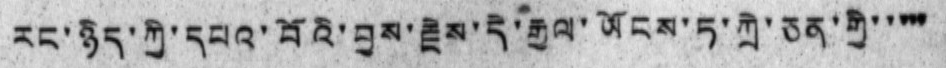རང་ཉིད་ཀྱི་དཔའ་བོའི་བྱས་རྗེས་དེ་རྒྱལ་ཡོངས་ཏ་ཀྲེ་ཅན་གྱི་་་་་
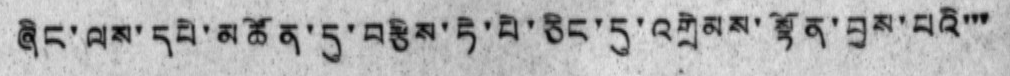ཞིང་ལས་དཔེ་མཚོན་དུ་བརྩིས་ཏེ་པེ་ཅིང་དུ་འགྲེམས་སྟོན་བྱས་པའི་་་
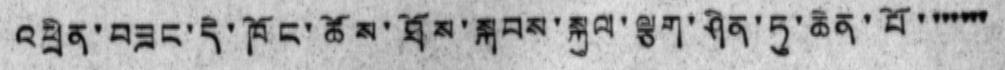འཕྲིན་བཟང་དེ་ཁོང་ཚོས་ཐོས་སྐབས་སྐུལ་ལྕག་ཤིན་ཏུ་ཆེན་པོ་་་་་་་
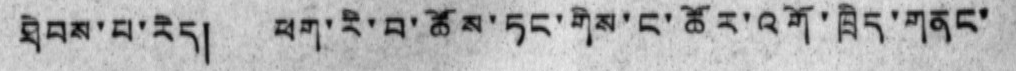ཐེབས་པ་རེད། ཕག་རི་བ་ཚོས་ཏང་གིས་ང་ཚོར་འགོ་ཁྲིད་གནང་
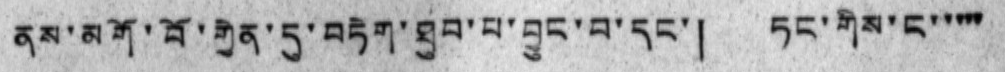ནས་མགོ་བོ་གྱེན་དུ་བཏེག་ཐུབ་པ་བྱུང་བ་དང་། ཏང་གིས་ང་་་་་
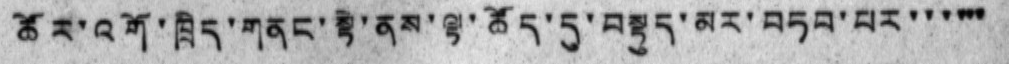ཚོར་འགོ་ཁྲིད་གནང་སྟེ་ནས་ལྟ་ཚོད་དུ་བསྟུད་མར་བཏབ་པར་་་་་་
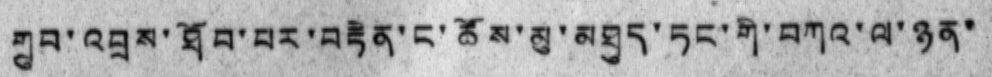གྲུབ་འབྲས་ཐོབ་པར་བརྟེན་ང་ཚོས་མུ་མཐུད་ཏང་གི་བཀའ་ལ་ཉན་
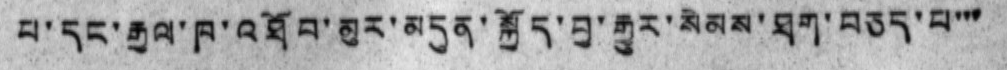པ་དང་རྒྱལ་ཁ་འཐོབ་མུར་མདུན་སྐྱོད་བྱ་རྒྱུར་སེམས་ཐག་བཅད་པ་་་
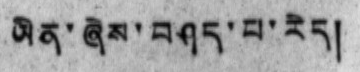ཡིན་ཞེས་བཤད་པ་རེད།
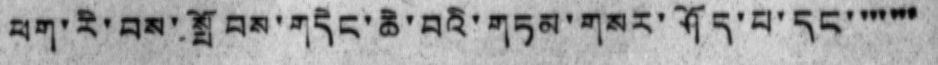ཕག་རི་བས་སྤོབས་གདེང་ཆེ་བའི་གཏམ་གསར་ཤོད་པ་དང་་་་་་་
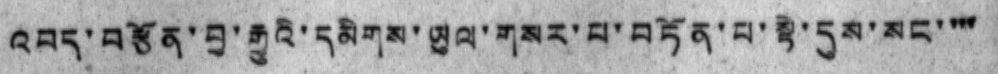འབད་བརྩོན་བྱ་རྒྱུའི་དམིགས་ཡུལ་གསར་པ་བཏོན་པ་སྟེ་དུས་སང་་་་
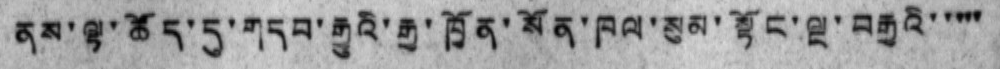ནས་ལྟ་ཚོད་དུ་གདབ་རྒྱུའི་རྒྱ་ཁྱོན་སོན་ཁལ་སུམ་སྟོང་ལྔ་བརྒྱའི་་་་་
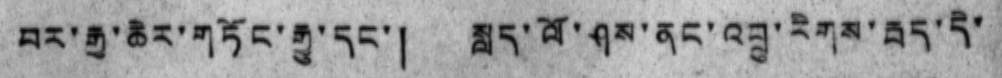བར་རྒྱ་ཆེར་གཏོང་རྒྱུ་དང་། སླད་ལོ་ཤས་ནང་འབྲུ་རིགས་རྦད་དེ་
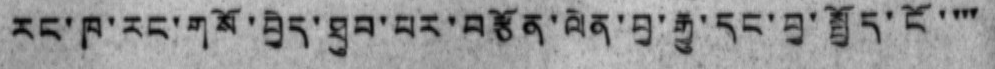རང་ཁ་རང་གསོ་བྱེད་ཐུབ་པར་བརྩོན་ལེན་བྱ་རྒྱུ་དང་བྱ་སྤྱོད་ངོ་་་་
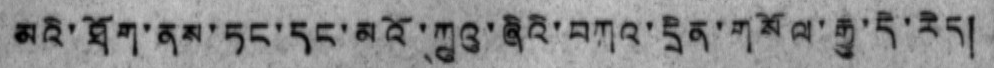མའི་ཐོག་ནས་ཏང་དང་མའོ་ཀྲུའུ་ཞིའི་བཀའ་དྲིན་གསོལ་རྒྱུ་དེ་རེད།
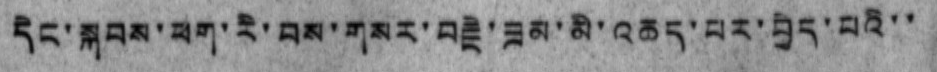དེང་སྐབས་ཕག་རི་བས་གསར་བརྗེ་ཟམ་མི་འཆད་པར་བྱེད་པའི་་
